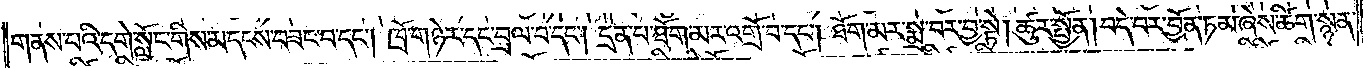གནས་པའི་དགེ་སློང་གིས་མདངས་བཟང་བ་དང༌། ཁྲོ་གཉེར་དང་བྲལ་བ་དང༌། དྲན་པ་ཐོག་མར་འགྲོ་བ་དང༌། ཐོག་མར་སྨྲ་བར་བྱ་སྟེ། ཚུར་སྤྱོན། བདེ་བར་བྱོན་ཏམ་ཞེས་ཚིག་སྙན་
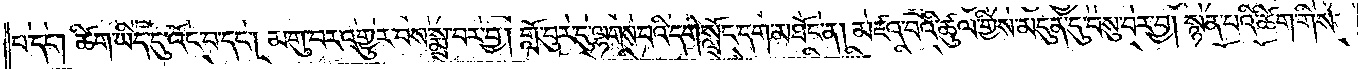པ་དང༌། ཚིག་ཡིད་དུ་འོང་བ་དང༌། མགུ་བར་འགྱུར་བས་སྨྲ་བར་བྱ། གློ་བུར་དུ་ལྷགས་པའི་དགེ་སློང་དག་མཐོང་ན། མཛའ་བའི་ཚུལ་གྱིས་མདུན་དུ་བསུ་བར་བྱ། སྙན་པའི་ཚིག་གིས་
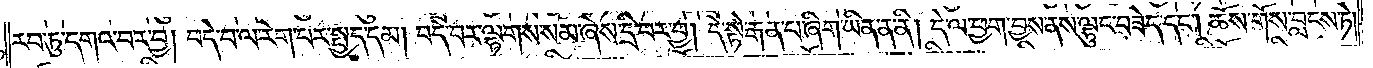རབ་ཏུ་དགའ་བར་བྱ། བདེ་བ་ལ་རེག་པར་སྤྱད་དམ། བདེ་བར་ལྷགས་སམ་ཞེས་དྲི་བར་བྱ། དེ་སྟེ་རྒན་པ་ཞིག་ཡིན་ན་ནི། དེ་ལ་ཕྱག་བྱས་ནས་ལྷུང་བཟེད་དང༌། ཆོས་གོས་བླངས་ཏེ།
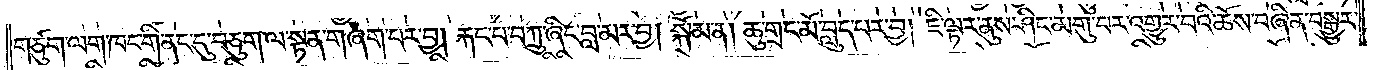གཙུག་ལག་ཁང་གི་ནང་དུ་བཅུག་ལ་སྟན་གཞག་པར་བྱ། རྐང་པ་བཀྲུ་ཞིང་བླ་མར་བྱ། སྐོམ་ན། ཆུ་གྲང་མོ་བླུད་པར་བྱ། ཇི་ལྟར་ནུས་ཤིང་མགུ་བར་འགྱུར་བའི་ཆོས་བཞིན་བསྒྱུར་
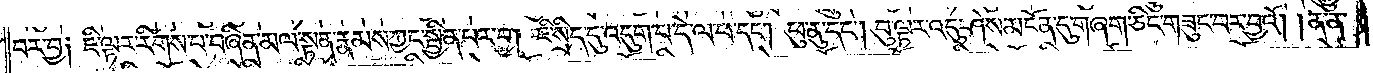བར་བྱ། ཇི་ལྟར་རིགས་པ་བཞིན་མལ་སྟན་རྣམས་ཀྱང་སྦྱིན་པར་བྱ། ཇི་སྲིད་དུ་འདུག་པ་དེ་ལ་ཕ་དང༌། ཕུ་ནུ་དང༌། བུ་ལྟར་འདུ་ཤེས་མངོན་དུ་གཞག་ཅིང་གཟུང་བར་བྱའོ། །ན་ན་
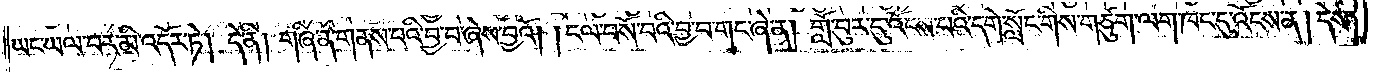ཡང་ཡལ་བར་མི་འདོར་ཏེ། དེ་ནི། གཞི་ན་གནས་པའི་བྱ་བ་ཞེས་བྱའོ། །ངལ་བསོ་བའི་བྱ་བ་གང་ཞེ་ན། གློ་བུར་དུ་འོངས་པའི་དགེ་སློང་གིས་གཙུག་ལག་ཁང་དུ་འོངས་ན། དེས་
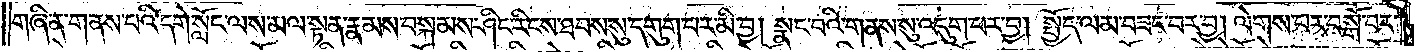གཞི་ན་གནས་པའི་དགེ་སློང་ལས་མལ་སྟན་རྣམས་བསྐམས་ཤིང་རིངས་ཐབས་སུ་དགུག་པར་མི་བྱ། སྣང་བའི་གནས་སུ་འདུག་པར་བྱ། སྤྱོད་ལམ་བཟང་བར་བྱ། ལེགས་པར་བསྒོ་བར་
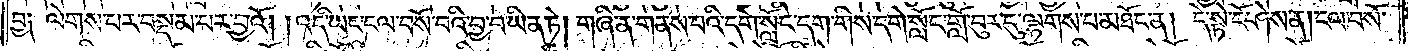བྱ། ལེགས་པར་བསྡམ་པར་བྱའོ། །འདི་ཡང་ངལ་བསོ་བའི་བྱ་བ་ཡིན་ཏེ། གཞི་ན་གནས་པའི་དགེ་སློང་དག་གིས་དགེ་སློང་གློ་བུར་དུ་ལྷགས་པ་མཐོང་ན། དེ་སྟེ་ངོ་ཤེས་ན། ངལ་བསོ་
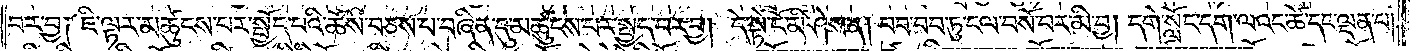བར་བྱ། ཇི་ལྟར་མཚུངས་པར་སྤྱོད་པའི་ཆོས་བཅས་པ་བཞིན་དུ་མཚུངས་པར་སྤྱད་པར་བྱ། དེ་སྟེ་ངོ་མི་ཤེས་ན། བབ་བབ་ཏུ་ངལ་བསོ་བར་མི་བྱ། དགེ་སློང་དག་ལའང་ཚེ་དང་ལྡན་པ།
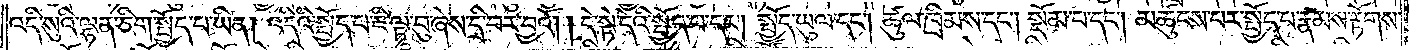འདི་སུའི་ལྷན་ཅིག་སྤྱོད་པ་ཡིན། འདིའི་སྤྱོད་པ་ཇི་ལྟ་བུ་ཞེས་དྲི་བར་བྱའོ། །དེ་སྟེ་དེའི་སྤྱོད་པ་དང༌། སྤྱོད་ཡུལ་དང༌། ཚུལ་ཁྲིམས་དང༌། སྡོམ་པ་དང༌། མཚུངས་པར་སྤྱོད་པ་རྣམས་རྟོགས་
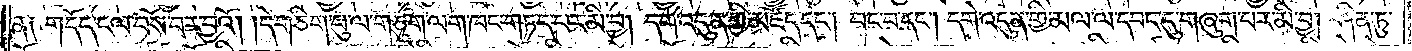ན། གདོད་ངལ་བསོ་བར་བྱའོ། །དེ་གཅིག་པུ་ལ་གཙུག་ལག་ཁང་གཏད་པར་མི་བྱ། དགེ་འདུན་གྱི་མཛོད་དང༌། བང་བ་དང༌། དགེ་འདུན་གྱི་མལ་ལ་དབང་དུ་གཞུག་པར་མི་བྱ། ཤིན་ཏུ་
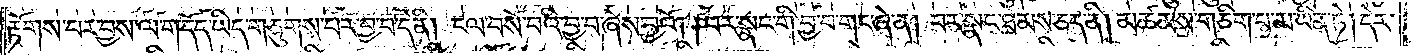རྟོགས་པར་བྱས་ལ་གདོད་ཡིད་གཅུགས་པར་བྱ་བ་དེ་ནི། ངལ་བསོ་བའི་བྱ་བ་ཞེས་བྱའོ། །བར་སྣང་གི་བྱ་བ་གང་ཞེ་ན། བར་སྣང་ཐམས་ཅད་ནི། མཚམས་གཅིག་པ་མ་ཡིན་ཏེ། དེར་
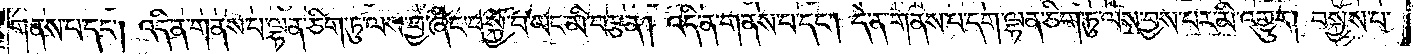གནས་པ་དང༌། འདི་ན་གནས་པ་ལྷན་ཅིག་ཏུ་ལས་བྱ་ཞིང་བསྐྱོ་བ་ཡང་མི་བརྩན། འདི་ན་གནས་པ་དང༌། དེ་ན་གནས་པ་དག་ལྷན་ཅིག་ཏུ་ལས་བྱས་པར་མི་འགྱུར། བསྐྱོས་པ་
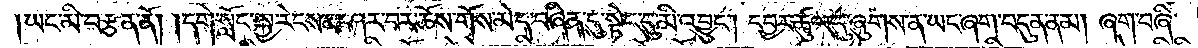ཡང་མི་བརྩན་ནོ། །དགེ་སློང་སྐྱ་རེངས་མ་ཤར་བར་ཆོས་གོས་མེད་བཞིན་དུ་སྟེང་དུ་མི་འབྱུང༌། དབྱར་ཚུལ་དུ་ཞུགས་ན་ཡང་ཞག་བདུན་ནམ། ཞག་བཞི་
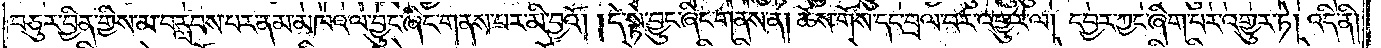བཅུར་བྱིན་གྱིས་མ་བརླབས་པར་ནམ་མཁའ་ལ་བྱུང་ཞིང་གནས་པར་མི་བྱའོ། །དེ་སྟེ་བྱུང་ཞིང་གནས་ན། ཆོས་གོས་དང་བྲལ་བར་འགྱུར་ལ། དབྱར་ཀྱང་ཞིག་པར་འགྱུར་ཏེ། འདི་ནི།
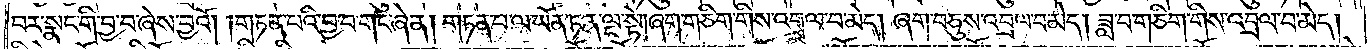བར་སྣང་གི་བྱ་བ་ཞེས་བྱའོ། །གཏན་པའི་བྱ་བ་གང་ཞེ་ན། གཏན་པ་ལ་ཡོན་ཏན་ལྔ་སྟེ། ཞག་གཅིག་གིས་འབྲལ་བ་མེད། ཞག་བཅུས་འབྲལ་བ་མེད། ཟླ་བ་གཅིག་གིས་འབྲལ་བ་མེད།
